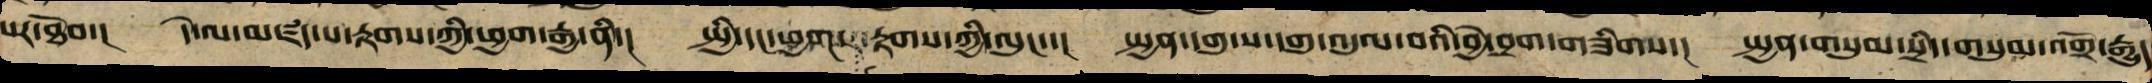པར་ཐོབ་།  དེ་ལ་མཛད་པ་རྟགས་ཀྱི་ཕྱག་རྒྱ་ནི་།  སྤྱི་དང་ཕྱག་  རྟགས་ཀྱི་ལུང་་།  སྤྱན་དགུ་ས་དགུ་འདུལ་བའི་བྱེ་བྲག་གཟིགས་།  སྤྱན་གསུམ་སྲིད་གསུམ་འགྲོ་རྒྱུད
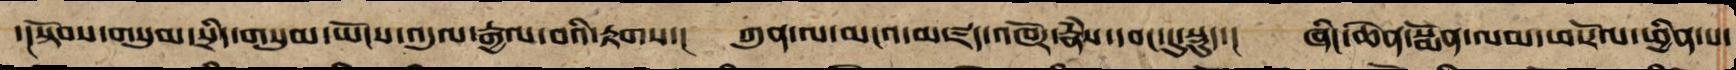་།སྟོབས་གསུམ་སྲིད་གསུམ་ཡོངས་འདུལ་རྒྱལ་བའི་རྟགས་།  ཀུན་ལ་མངའ་མཛད་འཁོར་རྣཾས་དབང་དུ་སྡུད་།  ཞིང་ཆེན་སྨོན་ལམ་ཕ་རོལ་ཕྱིན་པ་
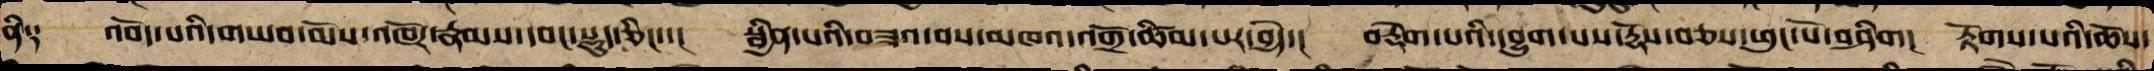ནི༑  འབོད་པའི་གཡབ་མོས་འཁོར་རྣམས་དབང་སྡུད་ཅིང་་།   སྦྱིན་པའི་བཟའ་བས་མཁའ་འགྲོ་ཚིམས་པར་བྱེད་།  བརྡེག་པའི་དབྱུག་པས་རྡོས་བཅས་ཕུང་པོ་བཤིག།  རྟོགས་པའི་ཆོས་
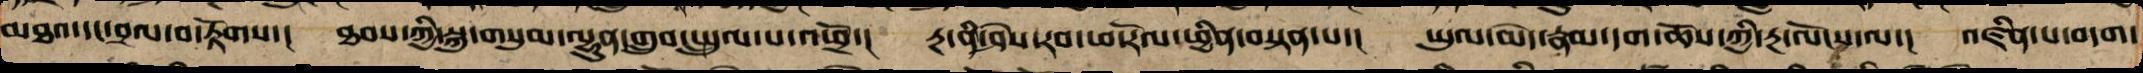མཐའ་དང་བྲལ་བ་རྟོགས་།   ཐབས་ཀྱི་སྐུ་གསུམ་ལྷུན་གྲུབ་སྤྲུལ་པ་འཕྲོ་།  རྔ་ནི་ཤེས་རབ་ཕ་རོལ་ཕྱིན་བསྟན་པ་།  ཡུལ་མེད་རྣམ་དག་ཆོས་ཀྱི་རྔ་ལོངས་ལ་།  འཛིན་པ་བདག་
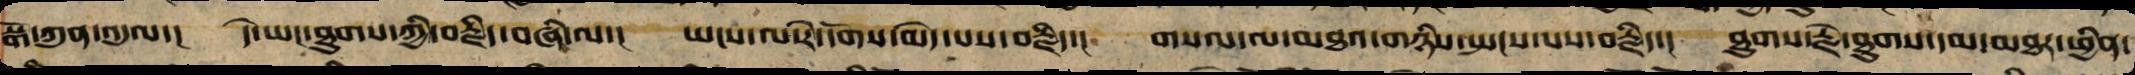སྒོ་ཀུན་འདུལ་།  དེ་ཡང་ཐུགས་ཀྱི་བརྗིད་བཞི་ལ་།  ཡངས་ལ་རེ་དོགས་མེད་པས་བརྗིད་། གསལ་བ་མཐའ་གཉིས་སྤངས་པས་བརྗིད་།  ཐུགས་རྗེ་ཐུགས་དམ་མཐར་ཕྱིན་
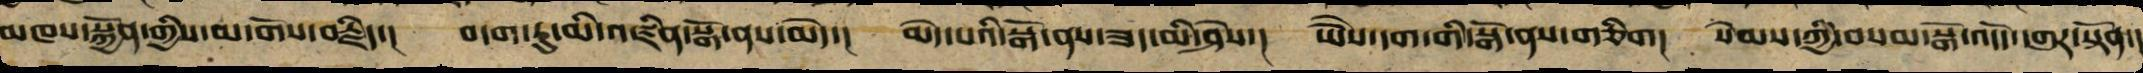མཁས་སྐྱོན་གྱིས་མ་གོས་བརྗིད་།  བདག་ཏུ་མི་འཛིན་སྒོ་ནས་མེད་།  མེད་པའི་སྒོ་ནས་ཟད་མི་ཤེས་།  ཡེཻས་དག་གི་སྒོ་ནས་གཅིག། སེམས་ཀྱི་བསམ་སྒོ་འདོད་དགུར་སྟོན་།
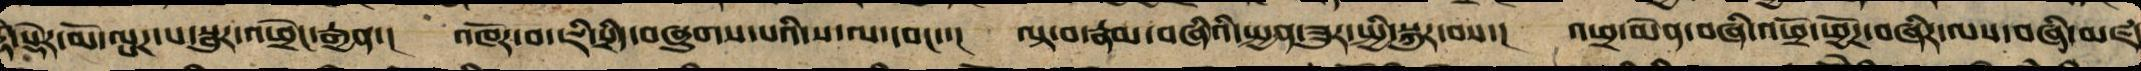རྡེ་སྡེར་མོ་ལྤར་པ་སྦུར་འཕྲེང་རྒྱན་།  འཁོར་བ་ཇི་སྲིད་བཞུགས་པའི་ས་ལ་དབང་་།  ལྟ་བ་རྣམ་བཞིའི་སྤྱན་ཟུར་སྤྱི་སྐུར་བས་།   འཕྲ་མེན་བཞི་འཕྲོ་ཕྱོཌ་བཞིར་ལས་བཞི་མཛད
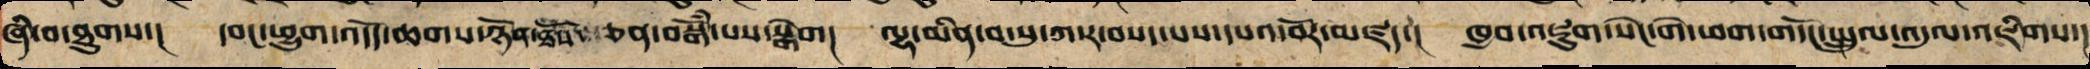ཞི་བ་ཐུགས།   །དབང་ཕྱུག་འདོད་ཆགས་ཉོན་ཐོབས་ཅན་བསྒོཾ་པས་སྒེག   །ལྷ་མིན་བ་སུ་ཀ་ར་བསད་པས་དཔའ་བོར་མཛད།   ཁྱབ་འཇུག་སེང་གེ་ཕག་གདོང་སྤྲུལ་འདུལ་འཇིགས་།
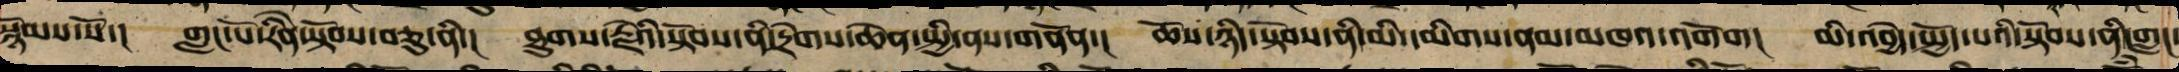སྙོམས་སོ།  གླང་པོ་རིཻན་སྟོབས་བཅུ་ནི་། ཐུགས་རྗེའི་སྟོབས་ནི་དྲེགས་ཆེན་སྤྱི་ནས་གནོན་།  ཆོས་ཉིད་སྟོབས་ནི་མི་དམིགས་ནམ་མཁའ་མདོག།  མི་འབྱེད་སྤྱོད་པའི་སྟོབས་ནི་གླང་
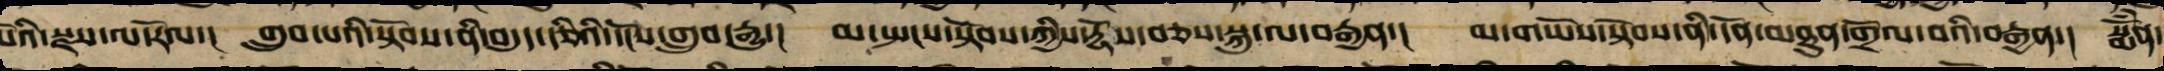པོའི་སྫས་ལ་རོལ་།  གྲུབ་པའི་སྟོབས་ནི་བདུད་རྩིའི་དངོས་གྲུབ་རྒྱུ་།  མ་སྤངས་སྟོབས་ཀྱིས་རྡོས་བཅས་སྐུ་ལ་བརྒྱན་།  མ་གཡོས་སྟོབས་ནི་དོན་མཐུན་གྲོལ་བའི་བརྒྱན་།  སྨོཾན་
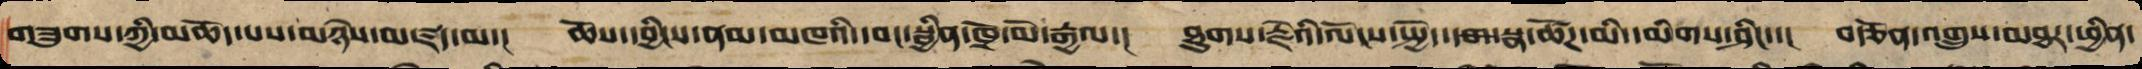གཟུགས་ཀྱི་མཆོད་པས་མཉེས་མཛད་མ་།  ཆོས་དབྱིངས་ནམ་མཁའི་དབང་སྦྱིན་ཁྲོ་མོ་རྒྱལ་།  ཐུགས་རྗེའི་ལོངས་སྤྱོད་སྣ་ཚོཌ་མི་དམིགས་ཤིང་་།  བརྩོན་འགྲུས་མཐར་ཕྱིན་
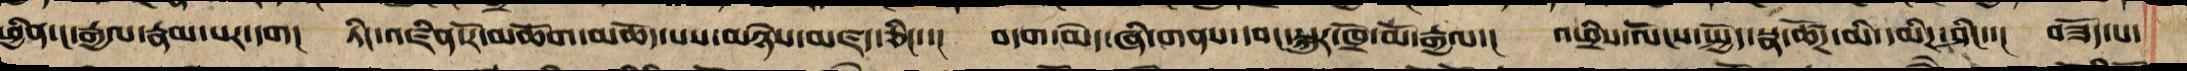ཕྱིན་ང་རྒྱལ་རྣམ་པར་དག།  ཏིང་འཛིན་རོ་མཆོག་མཆོད་པས་མཉེས་མཛད་ཅིང་་།  བདག་མེད་ཞི་གནས་དབང་བསྐུར་ཁྲོ་མོ་རྒྱལ་།  འཕྲིས་ལོངས་སྤྱོད་སྣ་ཚོཌ་མི་དམིཌ་ཤིང་།  བཟོད་པ་
